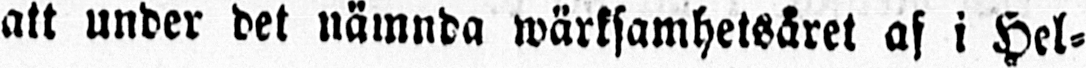att under det nämnda wärksamhetsåret af i Hel-
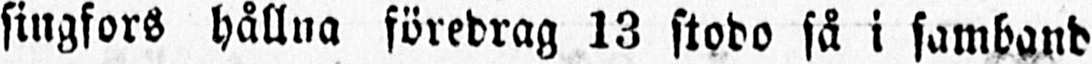singfors hållna föredrag 13 stodo så i samband
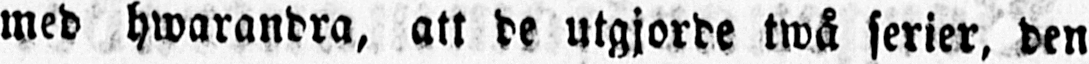med hwarandra, att de utgjorde twå serier, den
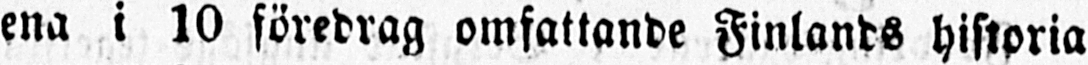ena i 10 föredrag omfattande Finlands historia
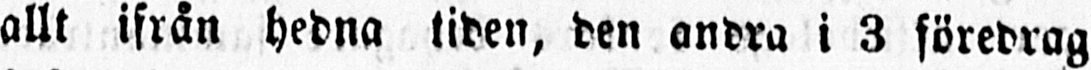allt ifrån hedna tiden, den andra i 3 föredrag
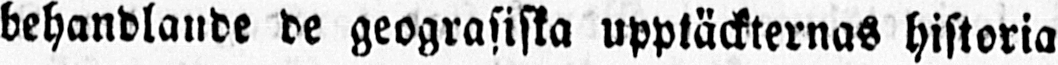behandlande de geografiska upptäckternas historia.
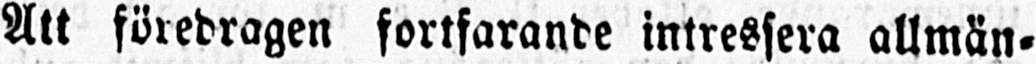Att föredragen fortfarande intressera allmän-
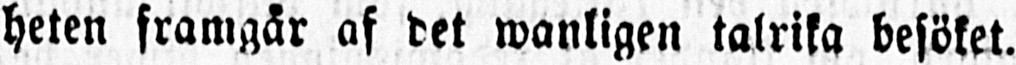heten framgår af det wanligen talrika besöket.
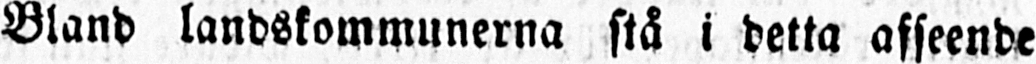Bland landskommunerna stå i detta afseende
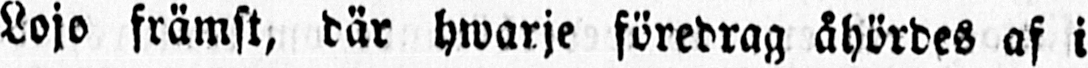Lojo främst, där hwarje föredrag åhördes af i
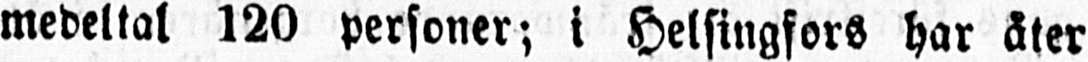medeltal 120 personer; i Helsingfors har åter
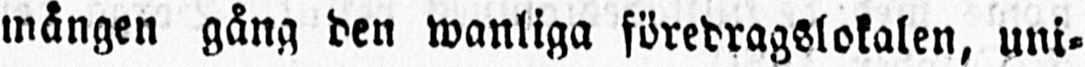mången gång den wanliga föredragslokalen, uni-
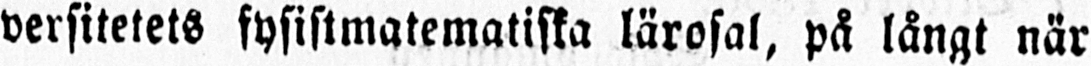versitetets fysiskmatematiska lärosal, på långt när
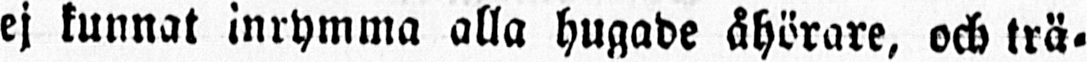ej kunnat inrymma alla hugade åhörare, och trä-
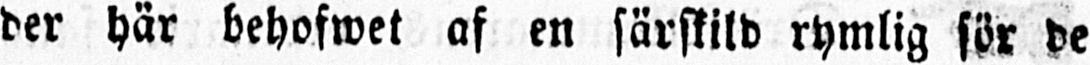der här behofwet af en särskild rymlig för de
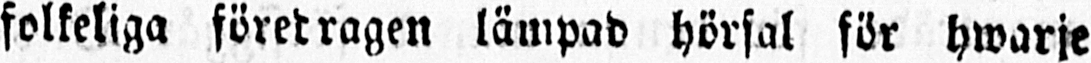folkeliga föredragen lämpad hörsal för hwarje
